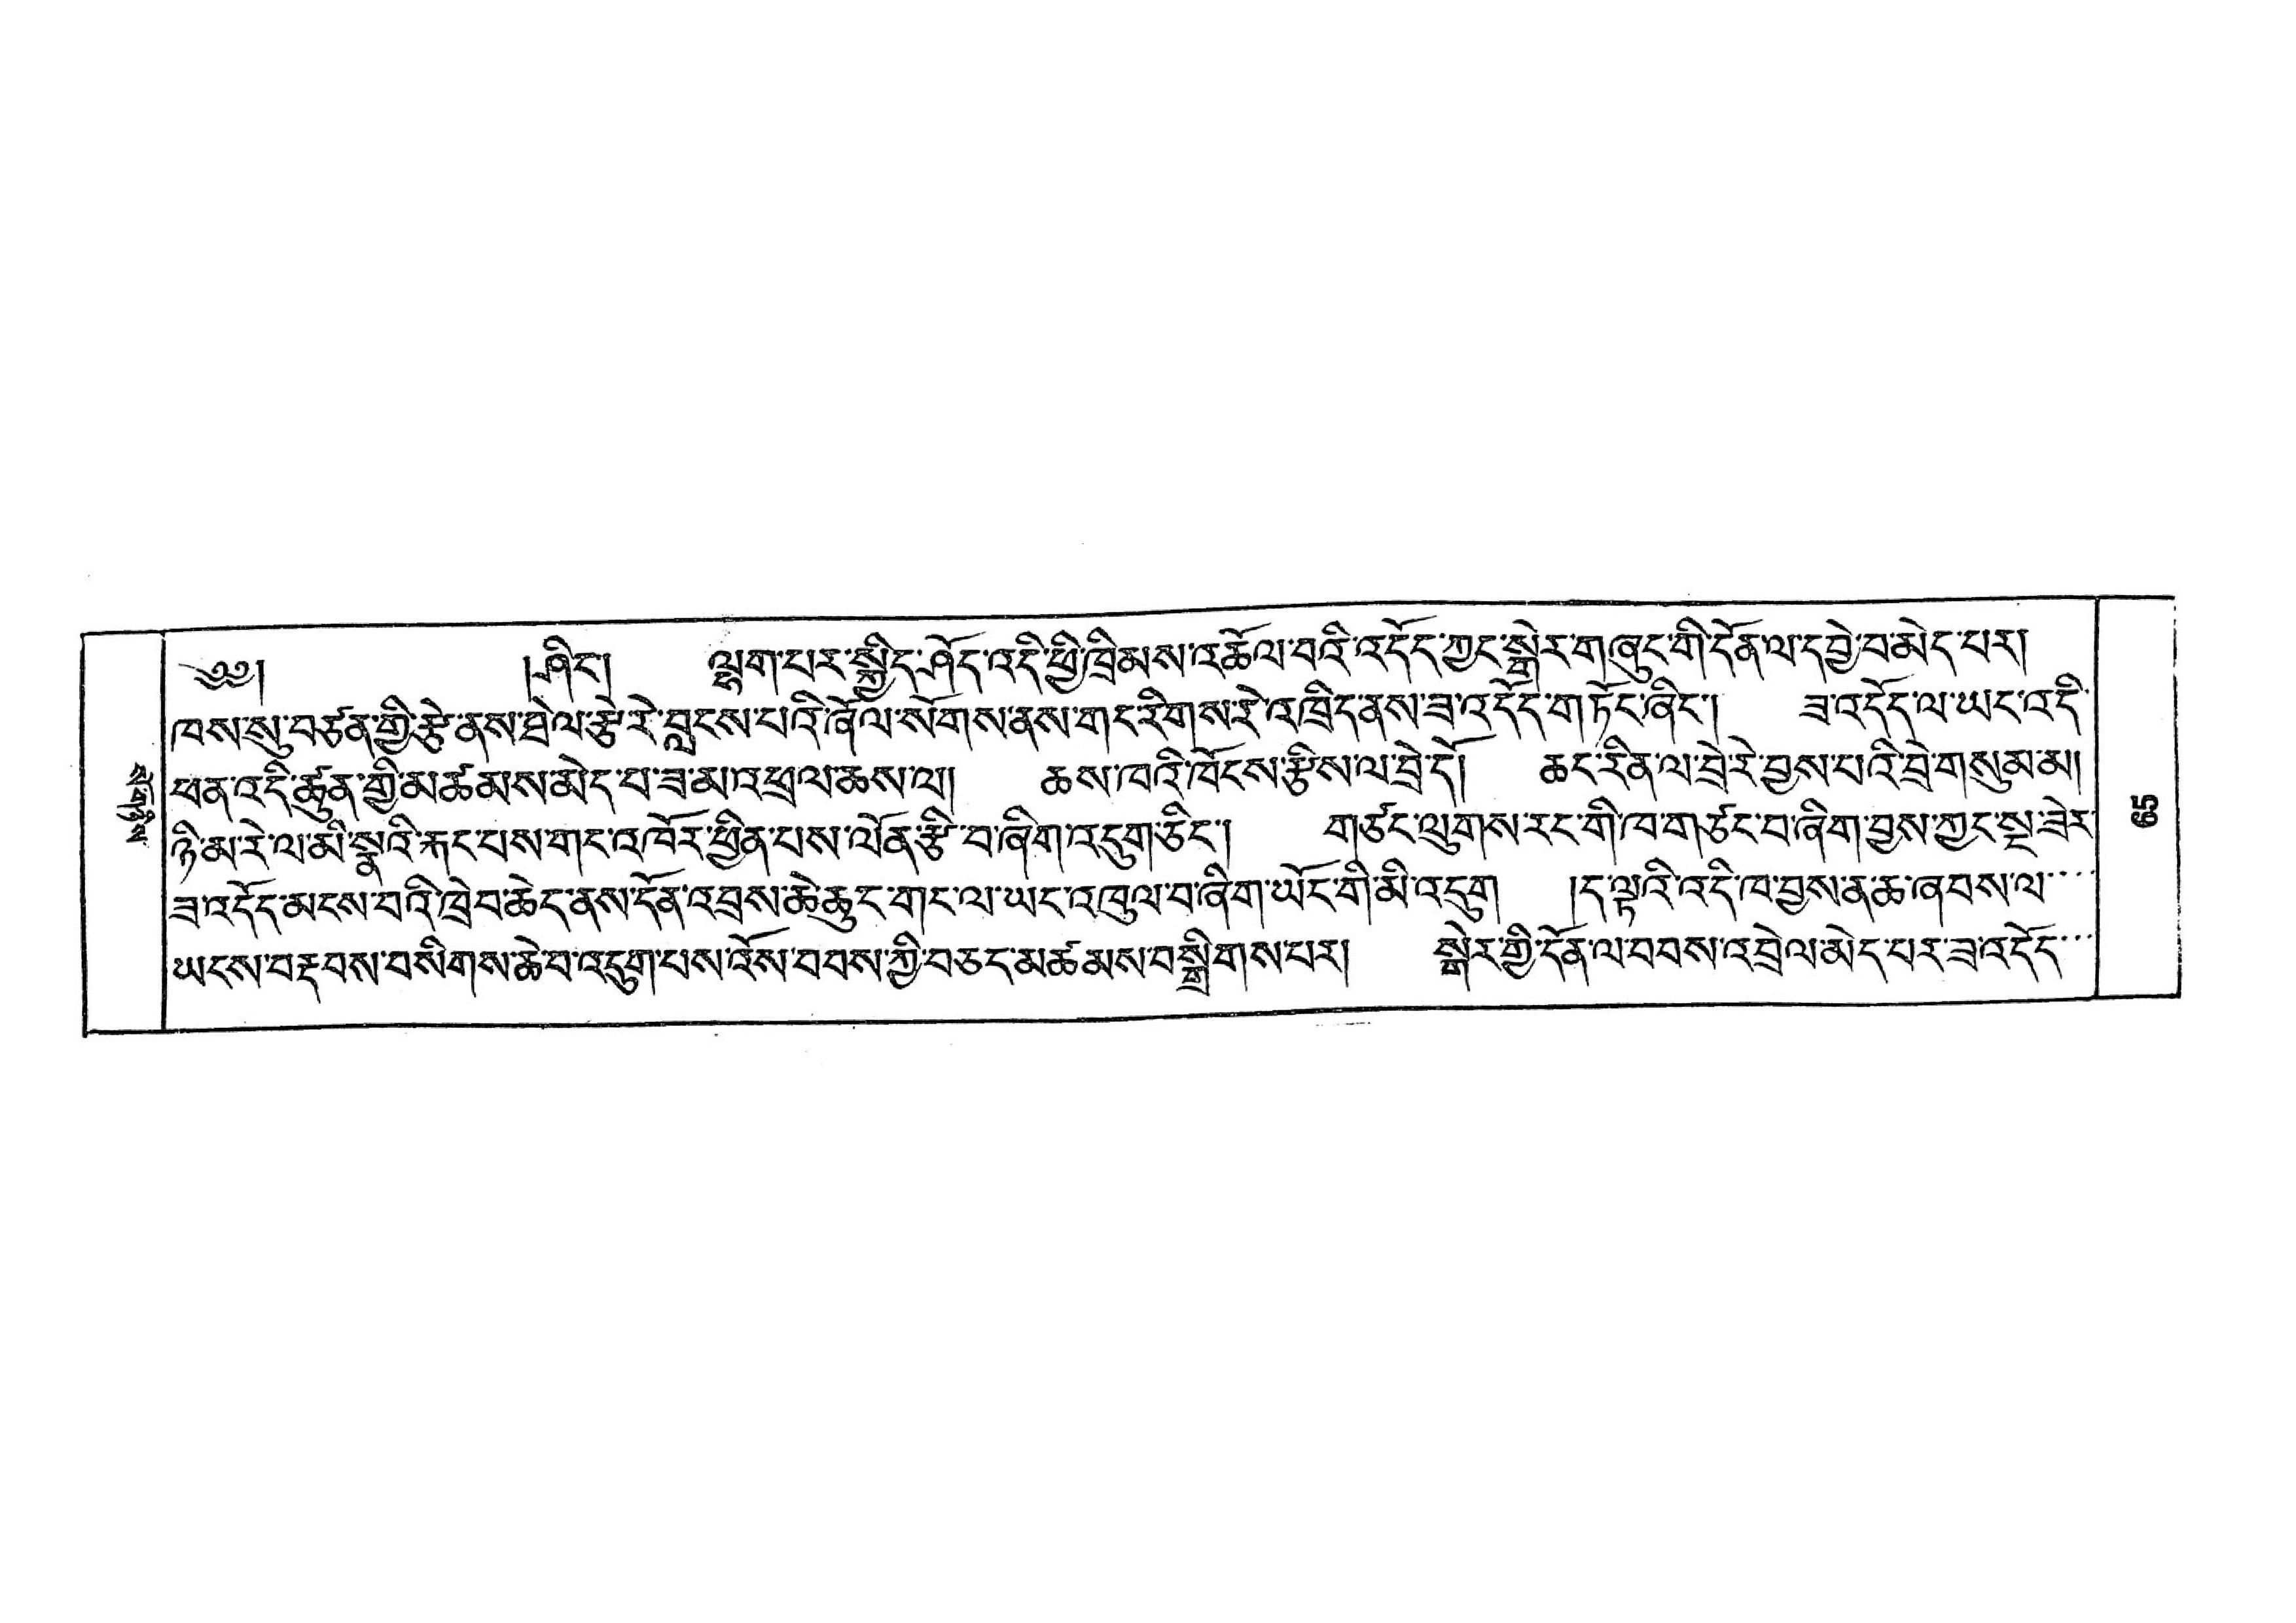སོ་གཉིས་
༄༅།  །ཤིང་། ལྷག་པར་སྐྱིད་ཤོད་འདི་ཕྱི་ཁྲིམས་འཆོལ་བའི་དོད་ཀྱང་སྒེར་གཞུང་གི་དོན་ལ་དབྱེ་བ་མེད་པར།
ཁབས་སུ་བཙན་གྱི་རྩེ་ནས་ཐེལ་རྩེ་ར་བླངས་པའི་ཞོལ་སོགས་ནས་གང་རིགས་རེ་ལཁྲིད་ནས་ཟ་འདོད་གཏོང་ཞིང་། ཟ་འདོད་ལ་ཡར་དི་
ཕན་འདི་ཚུན་གྱི་མཚམས་མེད་པ་ཟ་མ་འཕྲལ་ཆས་ལ། ཆས་ཁའི་ཁོངས་རྩིས་ལ་བྲེ་དོ། ཆང་རིན་ལ་བྲེ་རེ་བྱས་པའི་བྲེ་གསུམ་མ།
ཉི་མ་རེ་ལ་མི་སྣའི་རྐང་པས་གང་འཁོར་ཕྱིན་པས་ལོན་རྩི་བ་ཞིག་འདུག་ཅིང་། གཙང་ལུགས་རང་གི་ཁ་གཙང་བ་ཞིག་བྱས་ཀྱང་སྔ་ཟེར་
ཟ་འདོད་མངས་པའི་ཁྲེབ་ཆེད་ནས་དོན་འབྲས་ཆེ་ཆུང་གང་ལ་ཡང་འཁུལ་བ་ཞིག་ཡོང་གི་མི་འདུག །ད་ལྟའི་འདི་ཁ་བྱས་ན་ཆ་ཞབས་ལ་་་
ཡངས་བརྡབས་བསིགས་ཆེ་བ་འདུག་པས་འོས་བབས་ཀྱི་བཅད་མཚམས་བསྒྲིགས་པར། སྒེར་གྱི་དོན་ལ་བབས་འབྲེལ་མེད་པར་ཟ་འདོད་་་
